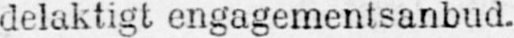delaktigt engagementsanbud.
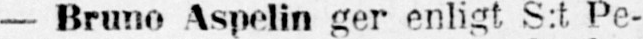— Bruno Aspelin ger enligt S:t Pe-
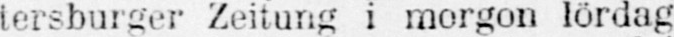tersburger Zeitung i morgon lördag
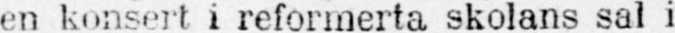en konsert i reformerta skolans sal i
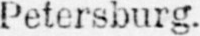Petersburg.
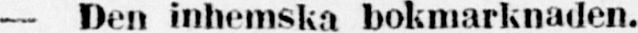— Den inhemska bokmarknaden.
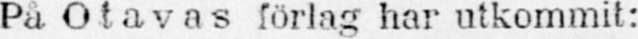På Otavas förlag har utkommit:
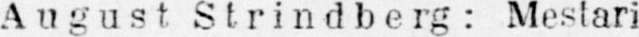August Strindberg: Mestari
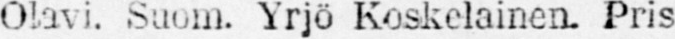Olavi. Suom. Yrjö Koskelainen. Pris
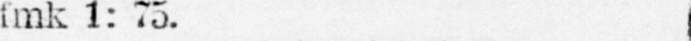fmk 1: 75.
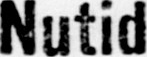Nutid
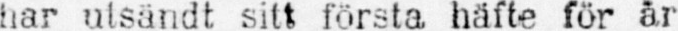har utsändt sitt första häfte för är
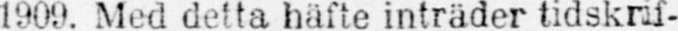1909. Med detta häfte inträder tidskrif-
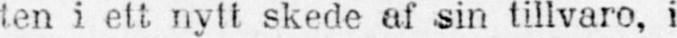ten i ett nytt skede af sin tillvaro, i
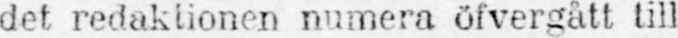det redaktionen numera öfvergått till
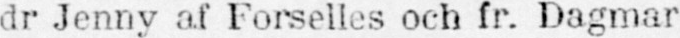dr Jenny af Forselles och fr. Dagmar
